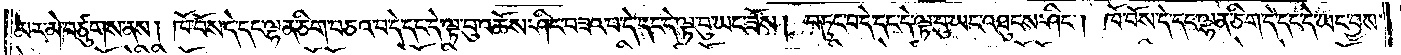མར་མེ་བཙུགས་ནས། ཁོ་བོས་དེ་དང་ལྷན་ཅིག་བཅའ་བ་དེ་དང་དེ་ལྟ་བུ་འཆོས་ཤིང་བཟའ་བ་དེ་དང་དེ་ལྟ་བུ་ཡང་ཟོས། བཏུང་བ་དེ་དང་དེ་ལྟ་བུ་ཡང་འཐུངས་ཤིང༌། ཁོ་བོས་དེ་དང་ལྷན་ཅིག་དེ་དང་དེ་ཡང་བྱས་
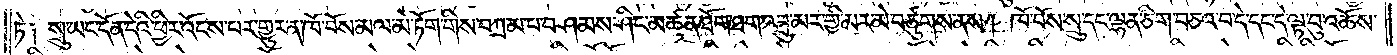ཏེ༑ སྲུ་ཡང་དོན་དེའི་ཕྱིར་འོངས་པར་གྱུར་ན་ཁོ་བོས་མལ་མེ་ཏོག་གིས་བཀྲམ་པ་བཤམས་ཤིང་མཚན་ཐོག་ཐག་འབྲུ་མར་གྱི་མར་མེ་བཙུགས་ནས། ཁོ་བོས་སྲུ་དང་ལྷན་ཅིག་བཅའ་བ་དེ་དང་དེ་ལྟ་བུ་འཆོས་
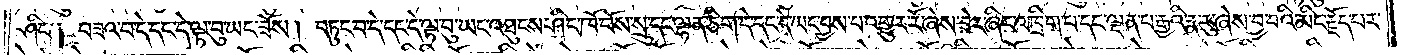ཤིང་༑ བཟའ་བ་དེ་དང་དེ་ལྟ་བུ་ཡང་ཟོས། བཏུང་བ་དེ་དང་དེ་ལྟ་བུ་ཡང་འཐུངས་ཤིང་ཁོ་བོས་སྲུ་དང་ལྷན་ཅིག་དེ་དང་དེ་ཡང་བྱས་པ་འགྱུར་རོ་ཞེས་ཟེར་ཞིང་འཁྲིག་པ་དང་ལྡན་པ་རྒྱའི་རྣ་རུ་ཞེས་བྱ་བའི་མིང་རྗོད་པར་
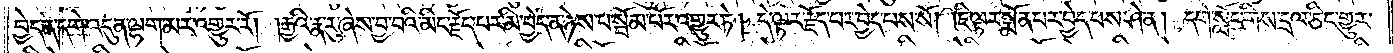བྱེད་ན་དགེ་འདུན་ལྷག་མར་འགྱུར་རོ། །རྒྱའི་རྣ་རུ་ཞེས་བྱ་བའི་མིང་རྗོད་པར་མི་བྱེད་ན་ཉེས་པ་སྦོམ་པོར་འགྱུར་ཏེ། དེ་ལྟར་རྗོད་པར་བྱེད་པས་སོ། །ཇི་ལྟར་སྨོན་པར་བྱེད་པས་ཤེ་ན། དགེ་སློང་གིས་དྲལ་ཅིང་གྱུར་
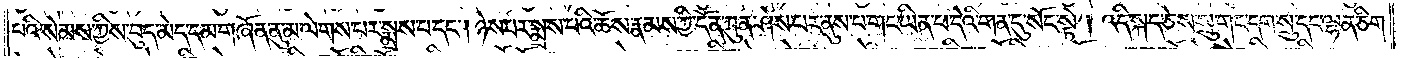པའི་སེམས་ཀྱིས་བུད་མེད་དམ་གཞོན་ནུ་མ་ལེགས་པར་སྨྲས་པ་དང༌། ཉེས་པར་སྨྲས་པའི་ཆོས་རྣམས་ཀྱི་དོན་ཀུན་ཤེས་པར་ནུས་པ་གང་ཡིན་པ་དེའི་གན་དུ་སོང་སྟེ། འདི་སྐད་ཅེས་སྲུ་གང་དག་སྲུ་དང་ལྷན་ཅིག་
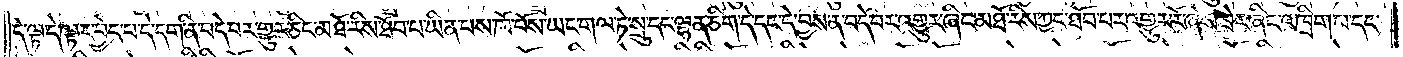དེ་ལྟ་དེ་ལྟར་བྱེད་པ་དེ་དག་ནི་བདེ་བར་གྱུར་ཅིང་མཐོ་རིས་ཐོབ་པ་ཡིན་པས་ཁོ་བོས་ཡང་གལ་ཏེ་སྲུ་དང་ལྷན་ཅིག་དེ་དང་དེ་བྱས་ན་བདེ་བར་འགྱུར་ཞིང་མཐོ་རིས་ཀྱང་ཐོབ་པར་འགྱུར་རོ་ཞེས་ཟེར་ཞིང་འཁྲིག་པ་དང་
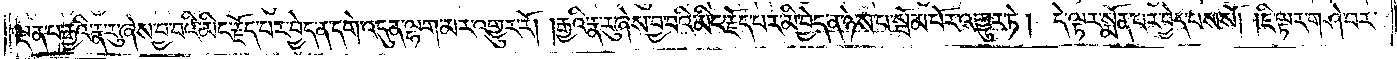ལྡན་པ་རྒྱའི་རྣ་རུ་ཞེས་བྱ་བའི་མིང་རྗོད་པར་བྱེད་ན་དགེ་འདུན་ལྷག་མར་འགྱུར་རོ། །རྒྱའི་རྣ་རུ་ཞེས་བྱ་བའི་མིང་རྗོད་པར་མི་བྱེད་ན་ཉེས་པ་སྦོམ་པོར་འགྱུར་ཏེ། དེ་ལྟར་སྨོན་པར་བྱེད་པས་སོ། །ཇི་ལྟར་གཤེ་བར་
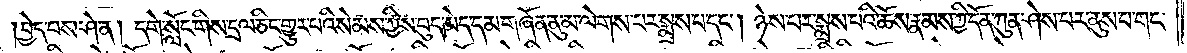།བྱེད་པས་ཤེ་ན། དགེ་སློང་གིས་དྲལ་ཅིང་གྱུར་པའི་སེམས་ཀྱིས་བུད་མེད་དམ་གཞོན་ནུ་མ་ལེགས་པར་སྨྲས་པ་དང༌། ཉེས་པར་སྨྲས་པའི་ཆོས་རྣམས་ཀྱི་དོན་ཀུན་ཤེས་པར་ནུས་པ་གང་
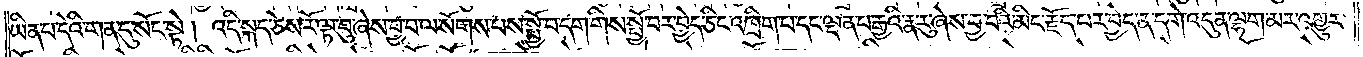ཡིན་པ་དེའི་གན་དུ་སོང་སྟེ། འདི་སྐད་ཅེས་རོ་ལྟ་བུ་ཞེས་བྱ་བ་ལ་སོགས་པས་སྤྱོ་བ་དག་གིས་སྤྱོ་བར་བྱེད་ཅིང་འཁྲིག་པ་དང་ལྡན་པ་རྒྱའི་རྣ་རུ་ཞེས་བྱ་བའི་མིང་རྗོད་པར་བྱེད་ན་དགེ་འདུན་ལྷག་མར་འགྱུར་
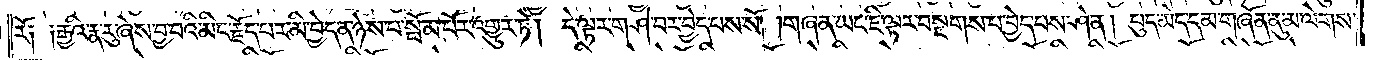རོ༑ ༑རྒྱའི་རྣ་རུ་ཞེས་བྱ་བའི་མིང་རྗོད་པར་མི་བྱེད་ན་ཉེས་པ་སྦོམ་པོར་འགྱུར་ཏེ། དེ་ལྟར་གཤེ་བར་བྱེད་པས་སོ། །གཞན་ཡང་ཇི་ལྟར་བསྔགས་པ་བྱེད་པས་ཤེ་ན། བུད་མེད་དམ་གཞོན་ནུ་མ་ལེགས་
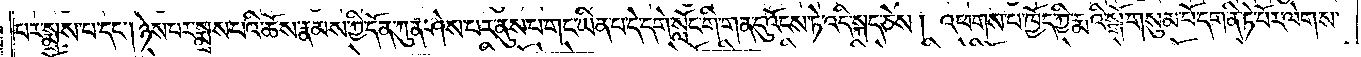པར་སྨྲས་པ་དང༌། ཉེས་པར་སྨྲས་པའི་ཆོས་རྣམས་ཀྱི་དོན་ཀུན་ཤེས་པར་ནུས་པ་གང་ཡིན་པ་དེ་དགེ་སློང་གི་གན་དུ་འོངས་ཏེ་འདི་སྐད་ཅེས། འཕགས་པ་ཁྱོད་ཀྱི་རྨའི་སྒོ་གསུམ་པོ་དག་ནི་ཏེ་པོར་ལེགས་
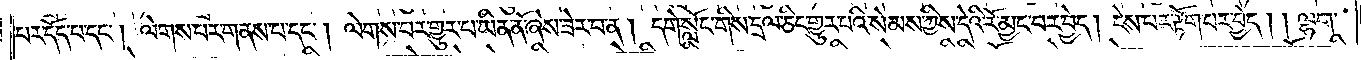པར་དོད་པ་དང༌། ལེགས་པར་གནས་པ་དང༌། ལེགས་པར་གྱུར་པ་ཡིན་ནོ་ཞེས་ཟེར་བ་ན། དགེ་སློང་གིས་དྲལ་ཅིང་གྱུར་པའི་སེམས་ཀྱིས་དེའི་རོ་མྱང་བར་བྱེད། ངེས་པར་རྟོག་པར་བྱེད། །ལྷག་
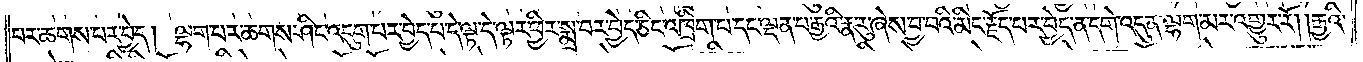པར་ཆགས་པར་བྱེད། ལྷག་པར་ཆགས་ཤིང་འདུག་པར་བྱེད་པ་དེ་ལྟ་དེ་ལྟར་ཕྱིར་སྨྲ་བར་བྱེད་ཅིང་འཁྲིག་པ་དང་ལྡན་པ་རྒྱའི་རྣ་རུ་ཞེས་བྱ་བའི་མིང་རྗོད་པར་བྱེད་ན་དགེ་འདུན་ལྷག་མར་འགྱུར་རོ། །རྒྱའི་
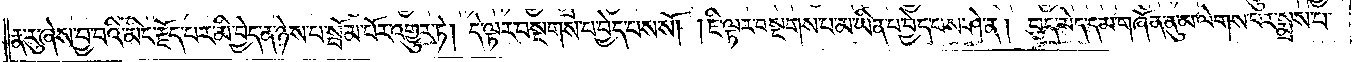རྣ་རུ་ཞེས་བྱ་བའི་མིང་རྗོད་པར་མི་བྱེད་ན་ཉེས་པ་སྦོམ་པོར་འགྱུར་ཏེ། དེ་ལྟར་བསྔགས་པ་བྱེད་པས་སོ། །ཇི་ལྟར་བསྔགས་པ་མ་ཡིན་པ་བྱེད་པས་ཤེ་ན། བུད་མེད་དམ་གཞོན་ནུ་མ་ལེགས་པར་སྨྲས་པ་
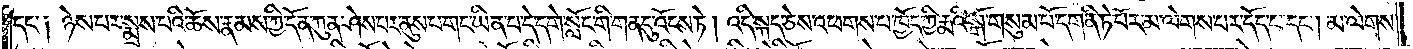དང་༑ ཉེས་པར་སྨྲས་པའི་ཆོས་རྣམས་ཀྱི་དོན་ཀུན་ཤེས་པར་ནུས་པ་གང་ཡིན་པ་དེ་དགེ་སློང་གི་གན་དུ་འོངས་ཏེ། འདི་སྐད་ཅེས་འཕགས་པ་ཁྱོད་ཀྱི་རྨའི་སྒོ་གསུམ་པོ་དག་ནི་ཏེ་པོར་མ་ལེགས་པར་དོད་པ་དང༌། མ་ལེགས་
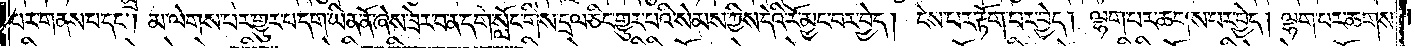པར་གནས་པ་དང༌། མ་ལེགས་པར་གྱུར་པ་དག་ཡིན་ནོ་ཞེས་ཟེར་བ་ན་དགེ་སློང་གིས་དྲལ་ཅིང་གྱུར་པའི་སེམས་ཀྱིས་དེའི་རོ་མྱང་བར་བྱེད། ངེས་པར་རྟོག་པར་བྱེད། ལྷག་པར་ཆགས་པར་བྱེད། ལྷག་པར་ཆགས་
